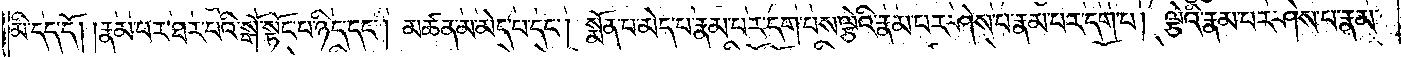མི་དད་དོ། །རྣམ་པར་ཐར་པའི་སྒོ་སྟོང་པ་ཉིད་དང༌། མཚན་མ་མེད་པ་དང༌། སྨོན་པ་མེད་པ་རྣམ་པར་དག་པས་ལྕེའི་རྣམ་པར་ཤེས་པ་རྣམ་པར་དག་པ། ལྕེའི་རྣམ་པར་ཤེས་པ་རྣམ་
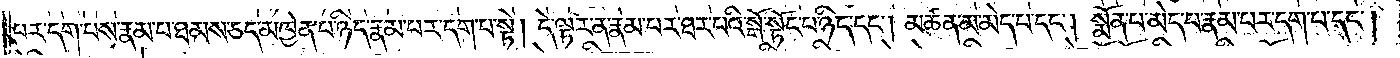པར་དག་པས་རྣམ་པ་ཐམས་ཅད་མཁྱེན་པ་ཉིད་རྣམ་པར་དག་པ་སྟེ། དེ་ལྟར་ན་རྣམ་པར་ཐར་པའི་སྒོ་སྟོང་པ་ཉིད་དང༌། མཚན་མ་མེད་པ་དང༌། སྨོན་པ་མེད་པ་རྣམ་པར་དག་པ་དང༌།
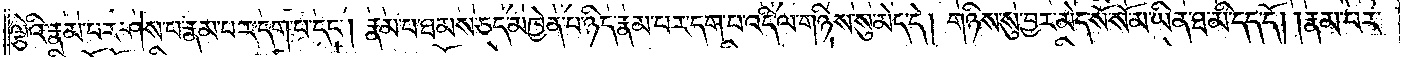ལྕེའི་རྣམ་པར་ཤེས་པ་རྣམ་པར་དག་པ་དང༌། རྣམ་པ་ཐམས་ཅད་མཁྱེན་པ་ཉིད་རྣམ་པར་དག་པ་འདི་ལ་གཉིས་སུ་མེད་དེ། གཉིས་སུ་བྱར་མེད་སོ་སོ་མ་ཡིན་ཐ་མི་དད་དོ། །རྣམ་པར་
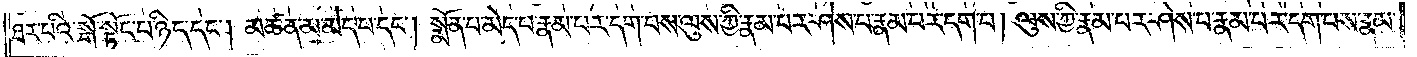ཐར་པའི་སྒོ་སྟོང་པ་ཉིད་དང༌། མཚན་མ་མེད་པ་དང༌། སྨོན་པ་མེད་པ་རྣམ་པར་དག་པས་ལུས་ཀྱི་རྣམ་པར་ཤེས་པ་རྣམ་པར་དག་པ། ལུས་ཀྱི་རྣམ་པར་ཤེས་པ་རྣམ་པར་དག་པས་རྣམ་
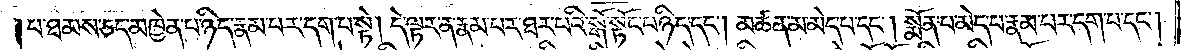པ་ཐམས་ཅད་མཁྱེན་པ་ཉིད་རྣམ་པར་དག་པ་སྟེ། དེ་ལྟར་ན་རྣམ་པར་ཐར་པའི་སྒོ་སྟོང་པ་ཉིད་དང༌། མཚན་མ་མེད་པ་དང༌། སྨོན་པ་མེད་པ་རྣམ་པར་དག་པ་དང༌།
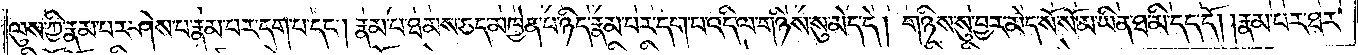ལུས་ཀྱི་རྣམ་པར་ཤེས་པ་རྣམ་པར་དག་པ་དང༌། རྣམ་པ་ཐམས་ཅད་མཁྱེན་པ་ཉིད་རྣམ་པར་དག་པ་འདི་ལ་གཉིས་སུ་མེད་དེ། གཉིས་སུ་བྱར་མེད་སོ་སོ་མ་ཡིན་ཐ་མི་དད་དོ། །རྣམ་པར་ཐར་
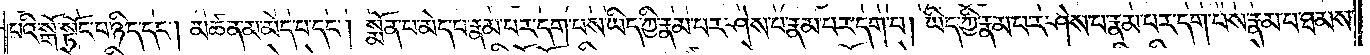པའི་སྒོ་སྟོང་པ་ཉིད་དང༌། མཚན་མ་མེད་པ་དང༌། སྨོན་པ་མེད་པ་རྣམ་པར་དག་པས་ཡིད་ཀྱི་རྣམ་པར་ཤེས་པ་རྣམ་པར་དག་པ། ཡིད་ཀྱི་རྣམ་པར་ཤེས་པ་རྣམ་པར་དག་པས་རྣམ་པ་ཐམས་
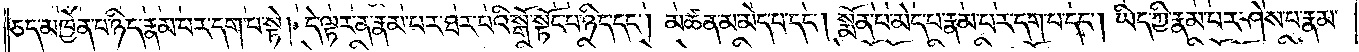ཅད་མཁྱེན་པ་ཉིད་རྣམ་པར་དག་པ་སྟེ། དེ་ལྟར་ན་རྣམ་པར་ཐར་པའི་སྒོ་སྟོང་པ་ཉིད་དང༌། མཚན་མ་མེད་པ་དང༌། སྨོན་པ་མེད་པ་རྣམ་པར་དག་པ་དང༌། ཡིད་ཀྱི་རྣམ་པར་ཤེས་པ་རྣམ་
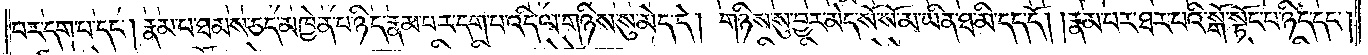པར་དག་པ་དང༌། རྣམ་པ་ཐམས་ཅད་མཁྱེན་པ་ཉིད་རྣམ་པར་དག་པ་འདི་ལ་གཉིས་སུ་མེད་དེ། གཉིས་སུ་བྱར་མེད་སོ་སོ་མ་ཡིན་ཐ་མི་དད་དོ། །རྣམ་པར་ཐར་པའི་སྒོ་སྟོང་པ་ཉིད་དང༌།
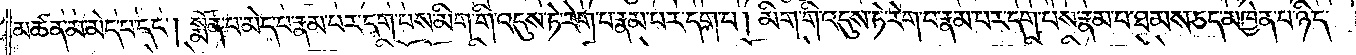མཚན་མ་མེད་པ་དང༌། སྨོན་པ་མེད་པ་རྣམ་པར་དག་པས་མིག་གི་འདུས་ཏེ་རེག་པ་རྣམ་པར་དག་པ། མིག་གི་འདུས་ཏེ་རེག་པ་རྣམ་པར་དག་པས་རྣམ་པ་ཐམས་ཅད་མཁྱེན་པ་ཉིད་
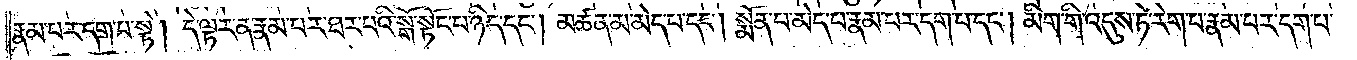རྣམ་པར་དག་པ་སྟེ། དེ་ལྟར་ན་རྣམ་པར་ཐར་པའི་སྒོ་སྟོང་པ་ཉིད་དང༌། མཚན་མ་མེད་པ་དང༌། སྨོན་པ་མེད་པ་རྣམ་པར་དག་པ་དང༌། མིག་གི་འདུས་ཏེ་རེག་པ་རྣམ་པར་དག་པ་
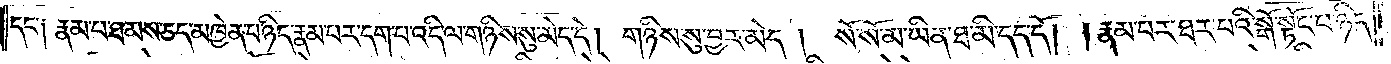དང་༑ རྣམ་པ་ཐམས་ཅད་མཁྱེན་པ་ཉིད་རྣམ་པར་དག་པ་འདི་ལ་གཉིས་སུ་མེད་དེ། གཉིས་སུ་བྱར་མེད། སོ་སོ་མ་ཡིན་ཐ་མི་དད་དོ། །རྣམ་པར་ཐར་པའི་སྒོ་སྟོང་པ་ཉིད་
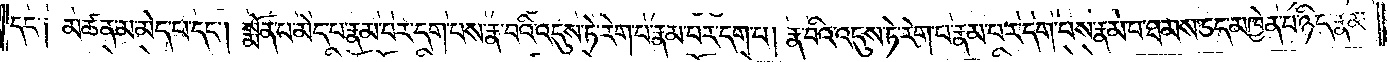དང་༑ མཚན་མ་མེད་པ་དང༌། སྨོན་པ་མེད་པ་རྣམ་པར་དག་པས་རྣ་བའི་འདུས་ཏེ་རེག་པ་རྣམ་པར་དག་པ། རྣ་བའི་འདུས་ཏེ་རེག་པ་རྣམ་པར་དག་པས་རྣམ་པ་ཐམས་ཅད་མཁྱེན་པ་ཉིད་རྣམ་
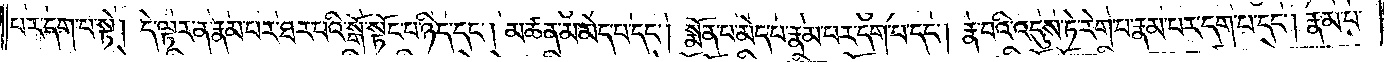པར་དག་པ་སྟེ༑ དེ་ལྟར་ན་རྣམ་པར་ཐར་པའི་སྒོ་སྟོང་པ་ཉིད་དང༌། མཚན་མ་མེད་པ་དང༌། སྨོན་པ་མེད་པ་རྣམ་པར་དག་པ་དང༌། རྣ་བའི་འདུས་ཏེ་རེག་པ་རྣམ་པར་དག་པ་དང༌། རྣམ་པ་
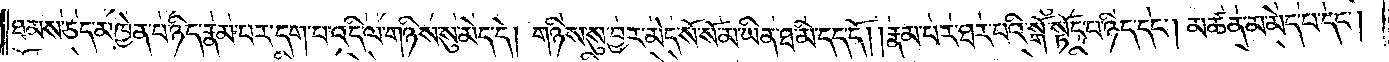ཐམས་ཅད་མཁྱེན་པ་ཉིད་རྣམ་པར་དག་པ་འདི་ལ་གཉིས་སུ་མེད་དེ། གཉིས་སུ་བྱར་མེད་སོ་སོ་མ་ཡིན་ཐ་མི་དད་དོ། །རྣམ་པར་ཐར་པའི་སྒོ་སྟོང་པ་ཉིད་དང༌། མཚན་མ་མེད་པ་དང༌།
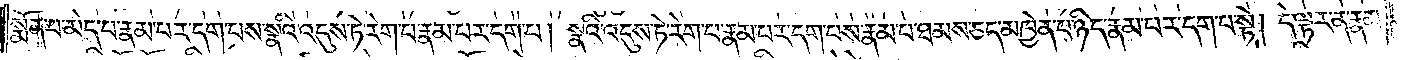སྨོན་པ་མེད་པ་རྣམ་པར་དག་པས་སྣའི་འདུས་ཏེ་རེག་པ་རྣམ་པར་དག་པ། སྣའི་འདུས་ཏེ་རེག་པ་རྣམ་པར་དག་པས་རྣམ་པ་ཐམས་ཅད་མཁྱེན་པ་ཉིད་རྣམ་པར་དག་པ་སྟེ། དེ་ལྟར་ན་རྣམ་
